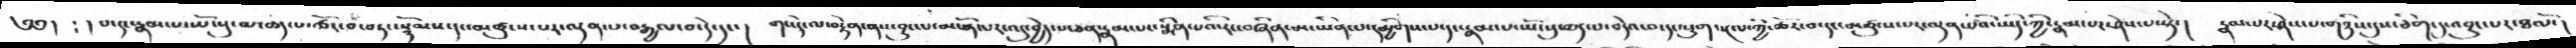༄༅།  ༴ ། པ་དང་རྣམ་པ་ཡོངསུ་མ་ཆད་པ་ཚོར་བ་བཏང་སྙོམས་དང་མཚུངས་པར་ལྡན་པ་བརྒྱལ་བ་དེ་དང་།  གང་དེ་ལ་བརྟེན་ནས་བྱུང་པ་མངོན་པར་འདུ་བྱེད་པ་ཅན་རྣམ་པར་སྨིས་པའི་རང་བཞིན་མ་ཡིན་པ་དམྱིགས་པ་དང་རྣམ་པ་ཡོངསུ་ཆད་པ་བདེའ་བ་དང་སྡུག་སྔལ་ཀྱི་ཚོར་བ་དང་མཚུངས་པར་ལྡན་པའི་ཡིད་ཀྱི་རྣམ་པར་ཤེས་པ་སྟེ་།  རྣམ་པར་ཤེས་པ་གཉིས་དུས་ཅིག་དུ་འབྱུང་པར་ཐལོ་།
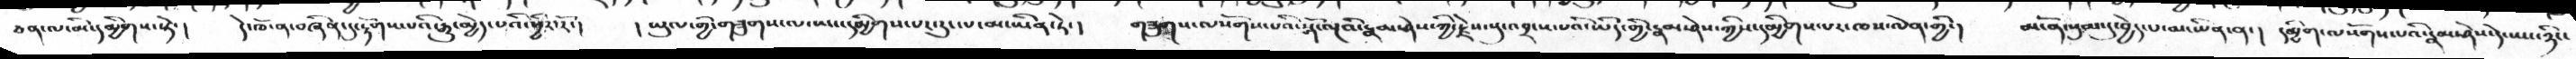ཅན་ལ་མི་དམྱིགས་སྟེ་།  དེ་ཁོ་ན་བཞིན་དུ་རྟོགས་པའི་རྒྱུ་མྱེད་པའི་ཕྱིར་རོ་།   །ཡུལ་གྱི་གཟུགས་ལ་ཡང་དམྱིགས་པར་རུང་པ་མ་ཡིན་ཏེ་།  གཟུགས་ལསོགས་པའི་སྒོ་ལྔའི་རྣམ་ཤེས་ཀྱི་རྗེས་སུ་འབྲངས་པའི་ཡིད་གྱི་རྣམ་ཤེས་ཀྱིས་དམྱིགས་པར་ཁས་ལེན་གྱི་།   མངོན་སུམ་དུ་བྱེད་པ་མ་ཡིན་ན་།  དམྱིག་ལསོགས་པའི་རྣམ་ཤེས་དེ་ཡང་ཉིང་
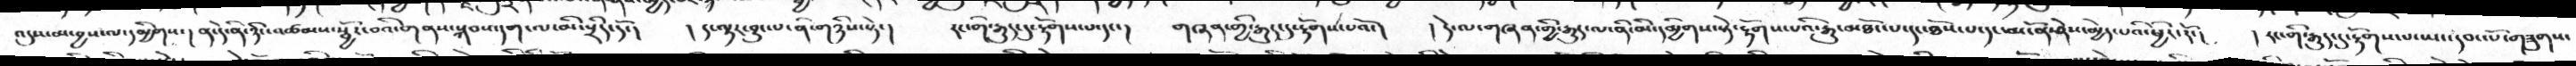འདུས་མ་བྱས་ལ་དམྱིགས་།   ན་དེ་ནི་ཉིང་འཚམས་སྦྱོར་བའི་གནས་སྐབས་དག་ལ་མི་སྲིད་དོ་།   ། ད་ལྟར་བྱུང་པ་ནི་གཉིས་སྟེ་།  རང་གི་རྒྱུད་དུ་རྟོགས་པ་དང་།  གཞན་གྱི་རྒྱུད་དུ་རྟོགས་པའོ་།  །དེ་ལ་གཞན་གྱི་རྒྱུད་ལ་ནི་མི་དམྱིགས་སྟེ་རྟོགས་པའི་རྒྱུ་མཐོང་པ་དང་ཐོས་པ་དང་མངོན་ཤེས་མྱེད་པའི་ཕྱིར་རོ་།  ། རང་གི་རྒྱུད་དུ་རྟོགས་པ་ཡང་དབང་པོ་གཟུགས་
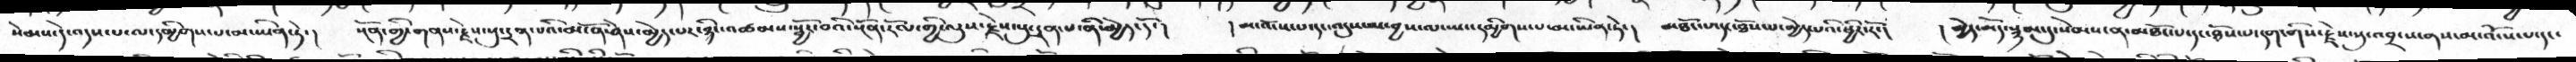སེམས་དེ་འདས་པ་ལ་དམྱིགས་པ་མ་ཡིན་ཏེ་།   སྔོན་གྱི་གནས་རྗེས་སུ་དྲན་པའི་མངོན་ཤེས་མྱེད་པར་ཉིང་འཚམས་སྦྱོར་བའི་སྔོན་རོལ་གྱི་ལུས་རྗེས་སུ་དྲན་པ་ནི་མྱེད་དོ་།  །མ་འོངས་པ་དང་འདུས་མ་བྱས་ལ་ཡང་དམྱིགས་པ་མ་ཡིན་ཏེ་།  མཐོང་པ་དང་ཐོས་པ་མྱེད་པའི་ཕྱིར་རོ་།  །མྱེད་མོད་སྙམ་དུ་སེམས་ན་མཐོང་པ་དང་ཐོས་པ་དག་གིས་རྗེས་སུ་འབྲངས་ནས་མ་འོངས་པ་དང་་
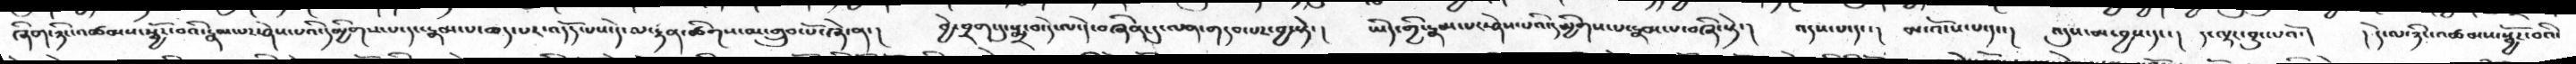ཞིག་ཉིང་འཚམས་སྦྱོར་བའི་རྣམ་པར་ཤེས་པའི་དམྱིགས་པ་དང་རྣམ་པ་ཆད་པར་འདོད་པས་དེ་ལ་རྟན་ཚིགས་མ་གྲུབ་པོ་ཞེ་ན་།   བྱེ་བྲག་དུ་སྨྲ་བ་དེ་ལ་དེ་བཞིན་དུ་ལན་གདབ་པར་བྱ་སྟེ་།   ཡིད་ཀྱི་རྣམ་པར་ཤེས་པའི་དམྱིགས་པ་རྣམ་པ་བཞི་སྟེ་།  འདས་པ་དང་།   མ་འོངས་པ་དང་།  འདུས་མ་བྱས་དང་།   ད་ལྟར་བྱུང་པའོ་།   ། དེ་ལ་ཉིང་འཚམས་སྦྱོར་བའི་
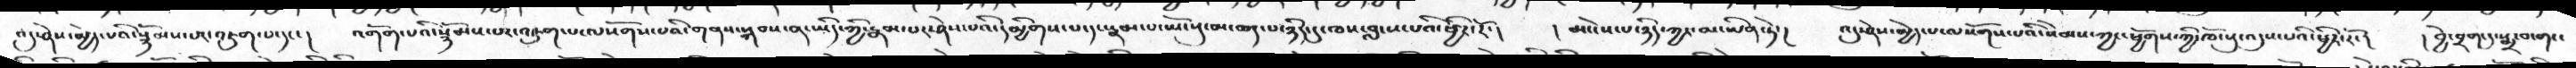འདུ་ཤེས་མྱེད་པའི་སྙོམས་པར་འཇུག་པ་དང་།   འགོག་པའི་སྙོམས་པར་འཇུག་པ་ལསོགས་པའི་གནས་སྐབས་ན་ཡིད་ཀྱི་རྣམ་པར་ཤེས་པའི་དམྱིགས་པ་དང་རྣམ་པ་ཡོངསུ་མ་ཆད་པ་ཉིད་དུ་ཁས་བླངས་པའི་ཕྱིར་རོ་།    ། མ་ངེས་པ་ཉིད་ཀྱང་མ་ཡིན་ཏེ་།   འདུ་ཤེས་མྱེད་པ་ལསོགས་པའི་སེམས་ཀྱང་ཕྱོགས་ཀྱི་ཁོངསུ་འདུས་པའི་ཕྱིར་རོ་།   ། བྱེ་བྲག་དུ་སྨྲ་བ་གང་
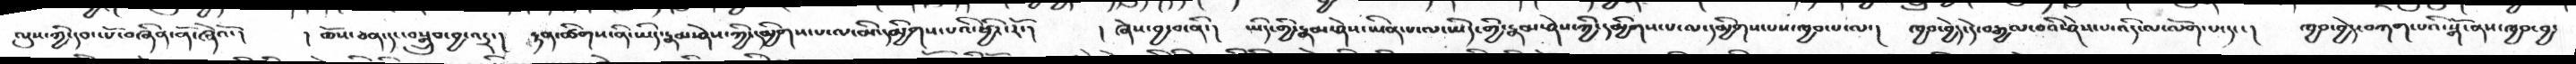ལུས་ཀྱི་དབང་པོ་བཞིན་ནོ་ཞེའོ་།    ། ཆོས་ཅན་དང་བསྒྲུབ་བྱ་འདྲ་།   རྟན་ཚིགས་ནི་ཡིད་རྣམ་ཤེས་ཀྱི་དམྱིགས་པ་ལ་མི་དམྱིགས་པའི་ཕྱིར་རོ་།   །  ཞེས་བྱ་བ་ནི་།   ཡིད་གྱི་རྣམ་ཤེས་ཡིན་པ་ལ་ཡིད་གྱི་རྣམ་ཤེས་ཀྱི་དམྱིགས་པ་ལ་དམྱིགས་པས་ཁྱབ་པ་ལ་།    ཁྱབ་བྱེད་དེ་བརྒྱལ་བའི་ཤེས་པ་འདི་ལ་ལོག་པ་དང་།   ཁྱབ་བྱེད་བཀག་པའི་སྒོ་ནས་ཁྱབ་བྱ་
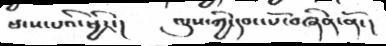ཕངས་པའི་ཕྱིར་།     ལུས་ཀྱི་དབང་པོ་བཞིན་ནོ་།
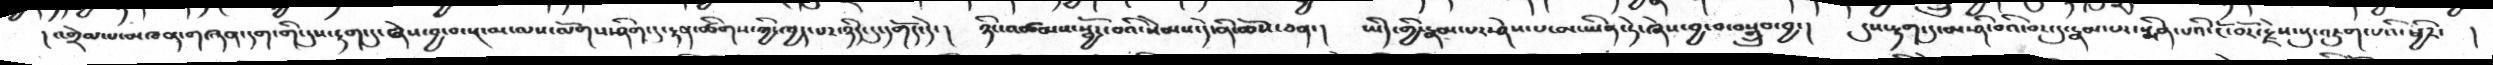།འགྲེལ་པ་མཁན་གཞན་དག་གི་དུས་རྟག་དུ་ཞེས་བྱ་བ་སྔ་མ་ལས་ལོགས་ཤིག་དུ་རྟན་ཚིགས་ཀྱི་ཁྱད་པར་ཉིད་དུ་དགོད་དེ་།  ཉིང་འཚམས་སྦྱོར་བའི་སེམས་དེ་ནི་ཆོས་ཅན་།  ཡིད་གྱི་རྣམ་པར་ཤེས་པ་མ་ཡིན་ཏེ་ཞེས་བྱ་བ་བསྒྲུབ་བྱ་།   དུས་རྟག་དུ་མ་ཤི་བའི་བར་དུ་རྣམ་པར་སྨིན་པའི་ངོ་བོར་རྗེས་སུ་འཇུག་པའི་ཕྱིར་  །
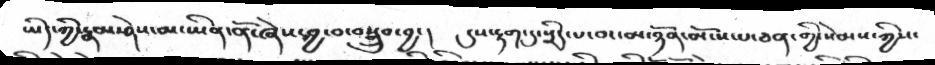ཡིད་ཀྱི་རྣམ་ཤེས་མ་ཡིན་ནོ་ཞེས་བྱ་བ་བསྒྲུབ་བྱ་།   དུས་རྟག་དུ་སྲིད་པ་བར་མ་ཉོན་མོངས་པ་ཅན་གྱི་སེམས་ཀྱིས་
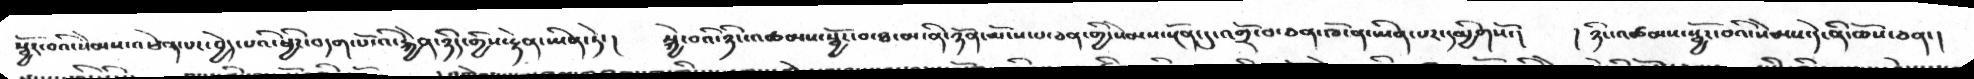སྦྱོར་བའི་སེམས་འཕེན་པར་བྱེད་པའི་ཕྱིར་བདག་པོ་འི་རྐྱེན་ཉིད་གྱིས་རྟེན་ཡིད་ཏེ་།   སྐྱེ་བའི་ཉིང་འཚམས་སྦྱོར་བ་ཐ་མ་ནི་ཉོན་མོངས་པ་ཅན་གྱི་སེམས་སྔོན་དུ་འགྲོ་བ་ཅན་ཁོ་ན་ཡིན་པར་དམྱིགསོ་།   །ཉིང་འཚམས་སྦྱོར་བའི་སེམས་དེ་ནི་ཆོས་ཅན་།
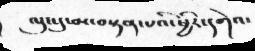ལུང་དུ་མ་བསྟན་པའི་ཕྱིར་དགེའ་
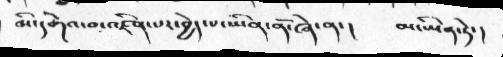མི་དགེའ་བ་འཛིན་པར་བྱེད་པ་ཡིན་ནོ་ཞེ་ན་།    མ་ཡིན་ཏེ་།
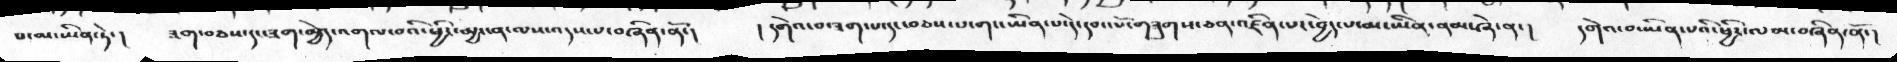པ་མ་ཡིན་ཏེ་།  ཟག་བཅས་དང་ཟག་མྱེད་འགལ་བའི་ཕྱིར་མྱ་ངན་ལས་འདས་པ་བཞིན་ནོ་།   །དགེའ་བ་ཟག་པ་དང་བཅས་པ་གང་ཡིན་པ་དེ་དབང་པོ་གཟུགས་ཅན་འཛིན་པར་བྱེད་པ་མ་ཡིན་ནམ་ཞེ་ན་།   དགེའ་བ་ཡིན་པའི་ཕྱིར་ལམ་བཞིན་ནོ་།
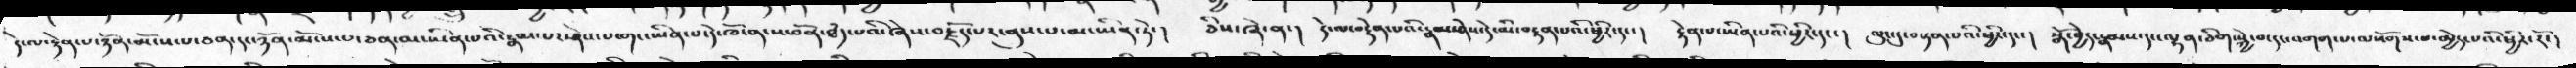དེ་ལ་རྟེན་པ་ཉོན་མོངས་པ་ཅན་དང་ཉོན་མོངས་པ་ཅན་མ་ཡིན་པའི་རྣམ་པར་ཤེས་པ་གང་ཡིན་པ་དེ་ཁོ་ན་ས་བོན་ཐདཾ་པའི་ཞེས་བརྗོད་པར་ནུས་པ་མ་ཡིན་ཏེ་།  ཅིས་ཞེ་ན་།  དེ་ལ་བརྟེན་པའི་རྣམ་ཤེས་དེ་མི་བརྟན་པའི་ཕྱིར་དང་།  རྟེན་པ་ཡིན་པའི་ཕྱིར་དང་།  ལུང་དུ་བསྟན་པའི་ཕྱིར་དང་།  སྒོ་བྱེད་རྣམས་དང་ལྷན་ཅིག་སྐྱེ་བ་དང་འགག་པ་ལསོགས་པ་མྱེད་པའི་ཕྱིར་རོ་།
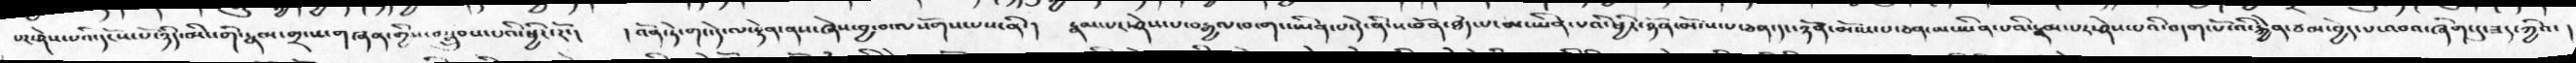པར་ཤེས་པའི་དངོས་པོ་ཉིད་མིང་གི་རྣམ་གྲངས་གཞན་གྱིས་བསྒྲུབས་པའི་ཕྱིར་རོ་།   །འོན་ཏེ་གང་དེ་ལ་རྟེན་ནས་ཞེས་བྱ་བ་ལསོགས་པས་ནི་།   རྣམ་པར་ཤེས་པ་བརྒྱལ་བ་གང་ཡིན་པ་དེ་ནི་ས་བོན་ཐདཾ་པ་མ་ཡིན་པའི་ཕྱིར་ཉོན་མོངས་པ་ཅན་དང་ཉོན་མོངས་པ་ཅན་མ་ཡིན་པའི་རྣམ་པར་ཤེས་པའི་བདག་པོ་འི་རྐྱེན་ཙམ་བྱེད་པ་འབའ་ཞིག་དུ་ཟད་ཀྱིའ་།
